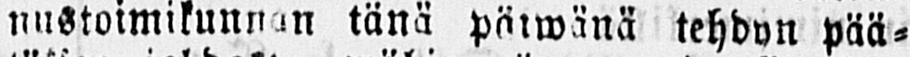nustoimikunnan tänä pärwänä tehdyn pää-
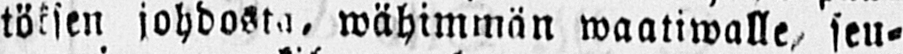töksen johdosta, wähimmän waatiwalle seu-
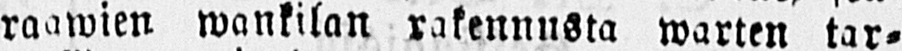raawien wankilan rakennusta warten tar-
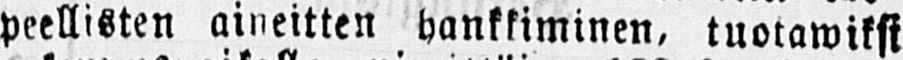peellisten aineitten hankkiminen, tuotawiksi
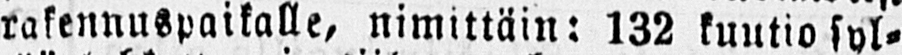rakennuspaikalle, nimittäin: 132 kuutio syl-
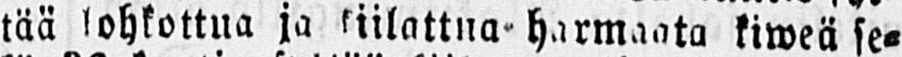tää lohkottua ja kiilattna harmaata kiweä se-
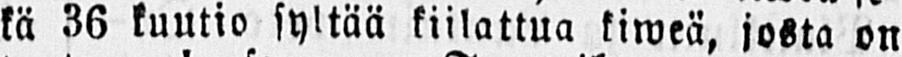kä 36 kuutio syltää kiilattua kiweä, josta on
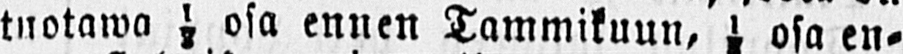tuotawa ⅓ osa ennen Tammikuun, ½ osa en-
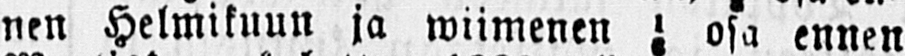nen Helmikuun ja wiimenen ½ osa ennen
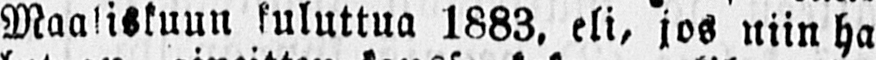Maaliskuun kuluttua 1883, eli, jos niin ha-
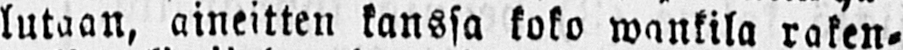lutaan, aineitten kanssa koko wankila raken-
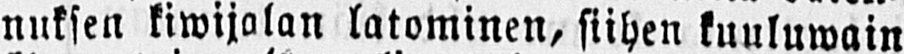nuksen kiwijolan latominen, siihen kuuluwain
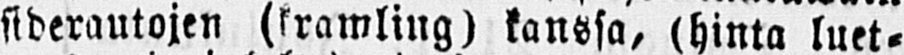siderautojen (kramling) kanssa, (hinta luet-
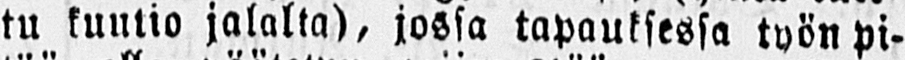tu kuutio jalalta), jossa tapauksessa työn pi-
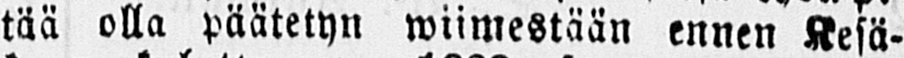tää olla päätetyn wiimestään ennen Kesä-
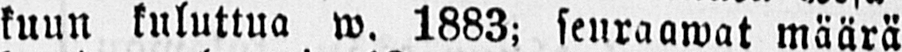kuun kuluttua w. 1883; seuraawat määrä
